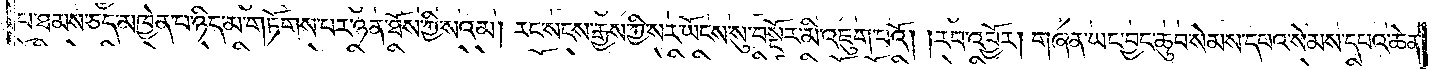པ་ཐམས་ཅད་མཁྱེན་པ་ཉིད་མ་གཏོགས་པར་ཉན་ཐོས་ཀྱི་སའམ། རང་སངས་རྒྱས་ཀྱི་སར་ཡོངས་སུ་བསྔོར་མི་འཇུག་པའོ། །རབ་འབྱོར། གཞན་ཡང་བྱང་ཆུབ་སེམས་དཔའ་སེམས་དཔའ་ཆེན་
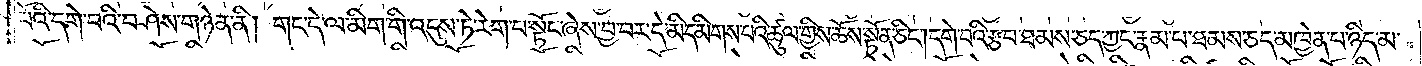པོའི་དགེ་བའི་བཤེས་གཉེན་ནི། གང་དེ་ལ་མིག་གི་འདུས་ཏེ་རེག་པ་སྟོང་ཞེས་བྱ་བར་དེ་མི་དམིགས་པའི་ཚུལ་གྱིས་ཆོས་སྟོན་ཅིང༌།དགེ་བའི་རྩ་བ་ཐམས་ཅད་ཀྱང་རྣམ་པ་ཐམས་ཅད་མཁྱེན་པ་ཉིད་མ་
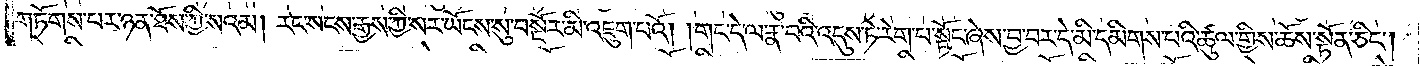གཏོགས་པར་ཉན་ཐོས་ཀྱི་སའམ། རང་སངས་རྒྱས་ཀྱི་སར་ཡོངས་སུ་བསྔོར་མི་འཇུག་པའོ། །གང་དེ་ལ་རྣ་བའི་འདུས་ཏེ་རེག་པ་སྟོང་ཞེས་བྱ་བར་དེ་མི་དམིགས་པའི་ཚུལ་གྱིས་ཆོས་སྟོན་ཅིང༌།
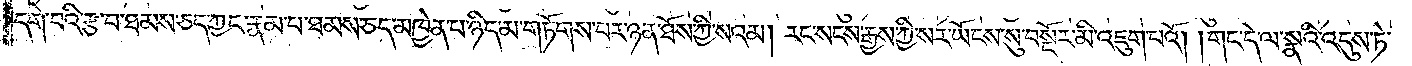དགེ་བའི་རྩ་བ་ཐམས་ཅད་ཀྱང་རྣམ་པ་ཐམས་ཅད་མཁྱེན་པ་ཉིད་མ་གཏོགས་པར་ཉན་ཐོས་ཀྱི་སའམ། རང་སངས་རྒྱས་ཀྱི་སར་ཡོངས་སུ་བསྔོར་མི་འཇུག་པའོ། །གང་དེ་ལ་སྣའི་འདུས་ཏེ་
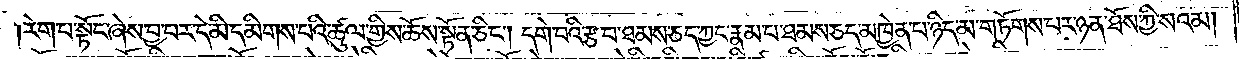རེག་པ་སྟོང་ཞེས་བྱ་བར་དེ་མི་དམིགས་པའི་ཚུལ་གྱིས་ཆོས་སྟོན་ཅིང༌། དགེ་བའི་རྩ་བ་ཐམས་ཅད་ཀྱང་རྣམ་པ་ཐམས་ཅད་མཁྱེན་པ་ཉིད་མ་གཏོགས་པར་ཉན་ཐོས་ཀྱི་སའམ།
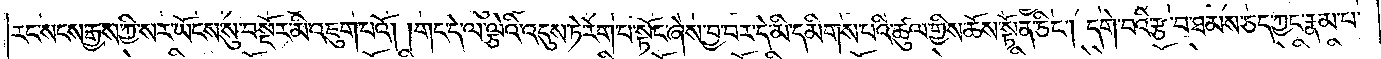རང་སངས་རྒྱས་ཀྱི་སར་ཡོངས་སུ་བསྔོར་མི་འཇུག་པའོ། །གང་དེ་ལ་ལྕེའི་འདུས་ཏེ་རེག་པ་སྟོང་ཞེས་བྱ་བར་དེ་མི་དམིགས་པའི་ཚུལ་གྱིས་ཆོས་སྟོན་ཅིང༌། དགེ་བའི་རྩ་བ་ཐམས་ཅད་ཀྱང་རྣམ་པ་
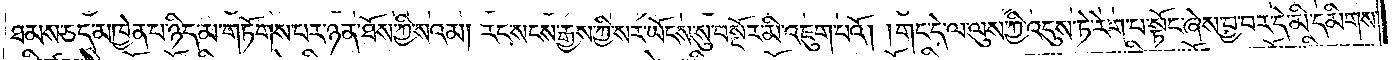ཐམས་ཅད་མཁྱེན་པ་ཉིད་མ་གཏོགས་པར་ཉན་ཐོས་ཀྱི་སའམ། རང་སངས་རྒྱས་ཀྱི་སར་ཡོངས་སུ་བསྔོར་མི་འཇུག་པའོ། །གང་དེ་ལ་ལུས་ཀྱི་འདུས་ཏེ་རེག་པ་སྟོང་ཞེས་བྱ་བར་དེ་མི་དམིགས་
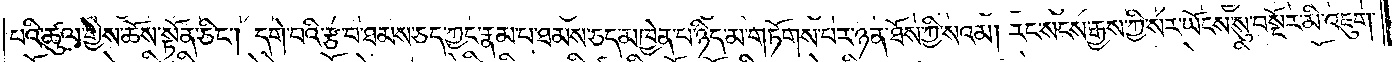པའི་ཚུལ་གྱིས་ཆོས་སྟོན་ཅིང༌། དགེ་བའི་རྩ་བ་ཐམས་ཅད་ཀྱང་རྣམ་པ་ཐམས་ཅད་མཁྱེན་པ་ཉིད་མ་གཏོགས་པར་ཉན་ཐོས་ཀྱི་སའམ། རང་སངས་རྒྱས་ཀྱི་སར་ཡོངས་སུ་བསྔོར་མི་འཇུག་
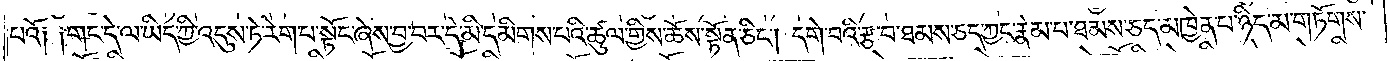པའོ༑ ༑གང་དེ་ལ་ཡིད་ཀྱི་འདུས་ཏེ་རེག་པ་སྟོང་ཞེས་བྱ་བར་དེ་མི་དམིགས་པའི་ཚུལ་གྱིས་ཆོས་སྟོན་ཅིང༌། དགེ་བའི་རྩ་བ་ཐམས་ཅད་ཀྱང་རྣམ་པ་ཐམས་ཅད་མཁྱེན་པ་ཉིད་མ་གཏོགས་
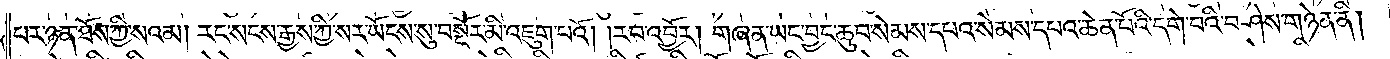པར་ཉན་ཐོས་ཀྱི་སའམ། རང་སངས་རྒྱས་ཀྱི་སར་ཡོངས་སུ་བསྔོར་མི་འཇུག་པའོ། །རབ་འབྱོར། གཞན་ཡང་བྱང་ཆུབ་སེམས་དཔའ་སེམས་དཔའ་ཆེན་པོའི་དགེ་བའི་བཤེས་གཉེན་ནི།
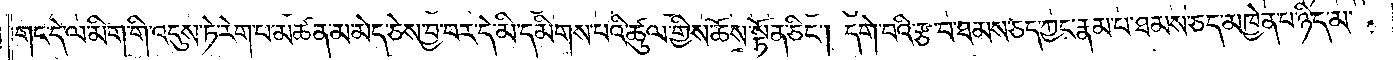གང་དེ་ལ་མིག་གི་འདུས་ཏེ་རེག་པ་མཚན་མ་མེད་ཅེས་བྱ་བར་དེ་མི་དམིགས་པའི་ཚུལ་གྱིས་ཆོས་སྟོན་ཅིང༌། དགེ་བའི་རྩ་བ་ཐམས་ཅད་ཀྱང་རྣམ་པ་ཐམས་ཅད་མཁྱེན་པ་ཉིད་མ་
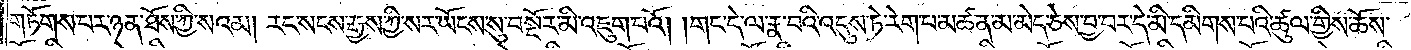གཏོགས་པར་ཉན་ཐོས་ཀྱི་སའམ། རང་སངས་རྒྱས་ཀྱི་སར་ཡོངས་སུ་བསྔོར་མི་འཇུག་པའོ། །གང་དེ་ལ་རྣ་བའི་འདུས་ཏེ་རེག་པ་མཚན་མ་མེད་ཅེས་བྱ་བར་དེ་མི་དམིགས་པའི་ཚུལ་གྱིས་ཆོས་
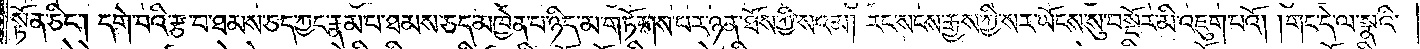སྟོན་ཅིང༌། དགེ་བའི་རྩ་བ་ཐམས་ཅད་ཀྱང་རྣམ་པ་ཐམས་ཅད་མཁྱེན་པ་ཉིད་མ་གཏོགས་པར་ཉན་ཐོས་ཀྱི་སའམ། རང་སངས་རྒྱས་ཀྱི་སར་ཡོངས་སུ་བསྔོར་མི་འཇུག་པའོ། །གང་དེ་ལ་སྣའི་
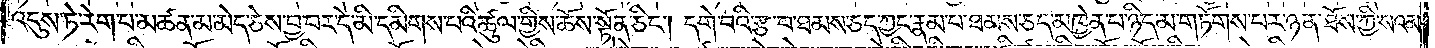འདུས་ཏེ་རེག་པ་མཚན་མ་མེད་ཅེས་བྱ་བར་དེ་མི་དམིགས་པའི་ཚུལ་གྱིས་ཆོས་སྟོན་ཅིང༌། དགེ་བའི་རྩ་བ་ཐམས་ཅད་ཀྱང་རྣམ་པ་ཐམས་ཅད་མཁྱེན་པ་ཉིད་མ་གཏོགས་པར་ཉན་ཐོས་ཀྱི་སའམ།
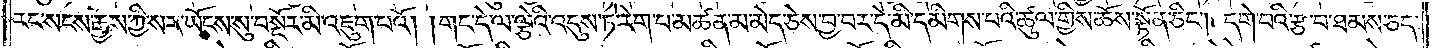རང་སངས་རྒྱས་ཀྱི་སར་ཡོངས་སུ་བསྔོར་མི་འཇུག་པའོ། །གང་དེ་ལ་ལྕེའི་འདུས་ཏེ་རེག་པ་མཚན་མ་མེད་ཅེས་བྱ་བར་དེ་མི་དམིགས་པའི་ཚུལ་གྱིས་ཆོས་སྟོན་ཅིང༌། དགེ་བའི་རྩ་བ་ཐམས་ཅད་
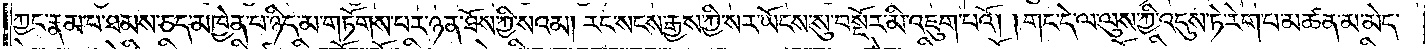ཀྱང་རྣམ་པ་ཐམས་ཅད་མཁྱེན་པ་ཉིད་མ་གཏོགས་པར་ཉན་ཐོས་ཀྱི་སའམ། རང་སངས་རྒྱས་ཀྱི་སར་ཡོངས་སུ་བསྔོར་མི་འཇུག་པའོ། །གང་དེ་ལ་ལུས་ཀྱི་འདུས་ཏེ་རེག་པ་མཚན་མ་མེད་
